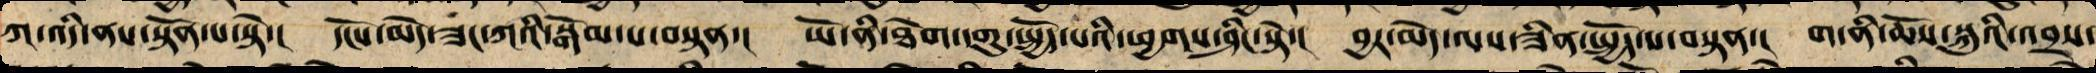ཀ་འདི་ནས་སྟོན་པ་སྟེ་། དངོས་མེད་ཟང་ཀའི་བསྒོམ་པ་བསྟན་། ཡོ་ནི་ཐེག་དགུ་སྤྱོད་པའི་ཕྱགས་ཤིང་སྟེ་། བྱར་མེད་ལས་ཟིན་སྤྱོད་པ་བསྟན་། ག་ནི་ཆོས་སྐུའི་འབྲས་
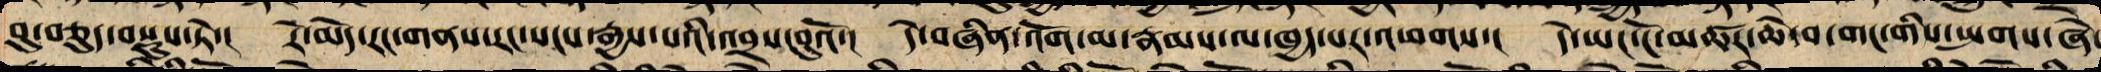བུ་བཅུད་བསྡུས་ཏེ་། རེ་མེད་རང་གནས་རང་སངས་རྒྱས་པའི་འབྲས་བུའོ་། དེ་བཞིན་འོག་མ་རྣམས་ལས་ཁྱད་པར་འཕགས་། དེ་ཡང་ངོ་མཚར་ཆེ་བ་གང་གིས་སྤགས་ཞེ་
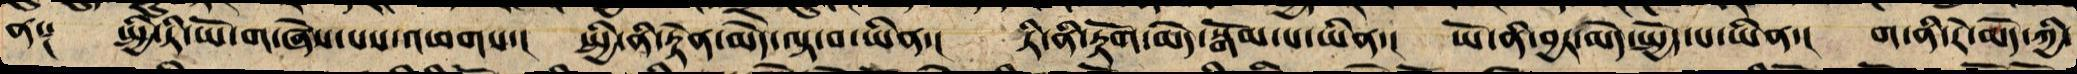ན༑ སྤྱི་ཏི་ཡོ་ག་ཞེས་པས་འཕགས་། སྤྱི་ནི་བསྟན་མེད་ལྟ་བ་ཡིན་། ཏི་ནི་རྟོག་མེད་སྒོམ་པ་ཡིན་། ཡོ་ནི་བྱར་མེད་སྤྱོད་པ་ཡིན་། ག་ནི་རེ་མེད་ཀྱི་
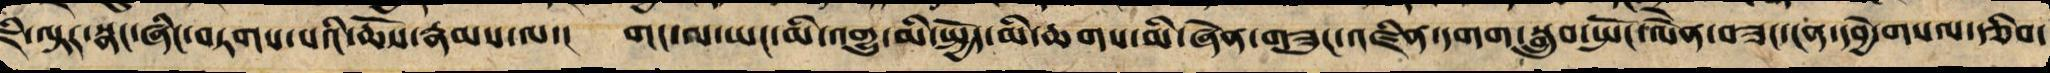ཇི་ལྟར་སྣང་ཞིང་བཏགས་པའི་ཆོས་རྣམས་ལ་། གང་ལ་ཡང་མི་འགྱུ་མི་སྤྱོད་མི་ཆགས་མི་ཞེན་གཟུང་འཛིན་དགག་སྒྲུབ་སྤོང་ལེན་བཟང་ངན་དབྱེ་བསལ་རྩིབ་
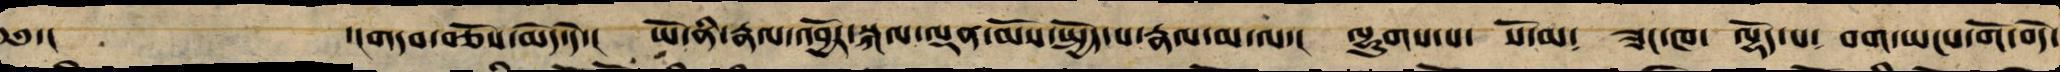༄༅་། ་།གདབ་བཅོས་མེད་དེ་། ཡོ་ནི་རྣལ་འབྱོར་སྐལ་ལྡན་མོས་སྤྱོད་པ་རྣལ་མ་ལ་། ལྷུགས་པ༴ སོ་མ༴ ཟང་ཁ༴ ལྷོད་པ༴ བག་ཡངས་གོ་བདེ་
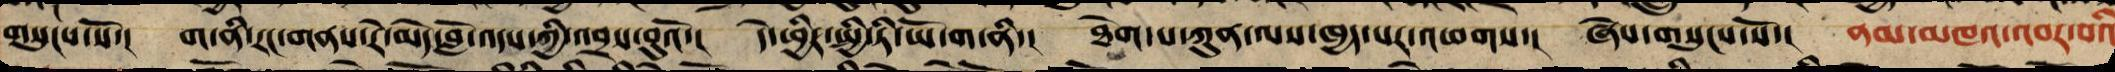གསུངས་སོ་། ག་ནི་རང་གནས་རེ་མེད་བློ་འདས་ཀྱི་འབྲས་བུའོ་། དེ་ཕྱིར་སྤྱི་ཏི་ཡོ་ག་ནི་། ཐེག་པ་ཀུན་ལས་ཁྱད་པར་འཕགས་། ཞེས་གསུངས་སོ་། ནམ་མཁའ་འབར་བའི
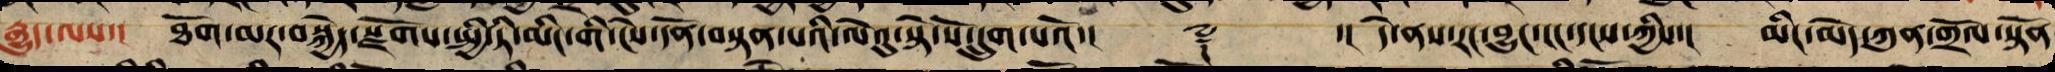རྒྱུད་ལས་། ཐོག་མར་བསྐྱེད་སྫོགས་སྤྱི་ཏི་མིང་གི་ངེས་དོན་བསྟན་པའི་ལེའུ་སྟེ་སོ་དྲུག་པའོ་།། ༈ ་།། དེ་ནས་རང་བྱུང་ངང་དངས་ཀྱིས་། མིང་མེད་ཀུན་གྲོལ་སྟོན་
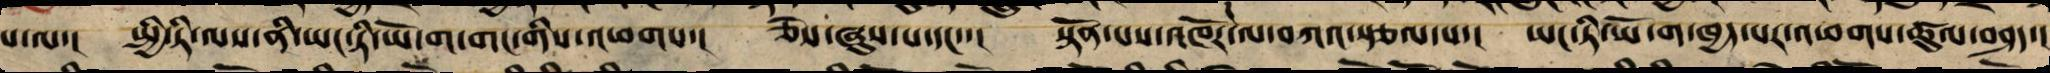པ་ལ་། སྤྱི་ཏི་ལས་ནི་ཡང་ཏི་ཡོ་ག་གང་གིས་འཕགས་། ཅེས་ཞུས་པ་དང་་། སྟོན་པས་འཁོར་ལ་བཀའ་སྩལ་པ་། ཡང་ཏི་ཡོ་ག་ཁྱད་པར་འཕགས་ཚུལ་བཤད་།
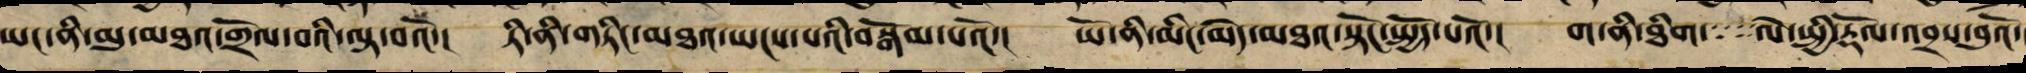ཡང་ནི་མུ་མཐའ་གྲོལ་བའི་ལྟ་བའོ་། ཏི་ནི་གཏིང་མཐའ་ཡངས་པའི་བསྒོམ་པའོ་། ཡོ་ནི་མིང་མེད་མཐའ་སྟོང་སྤྱོད་པའོ་། ག་ནི་ཐིག་ལེ་སྤྱི་རྟོལ་འབྲས་བུའོ་
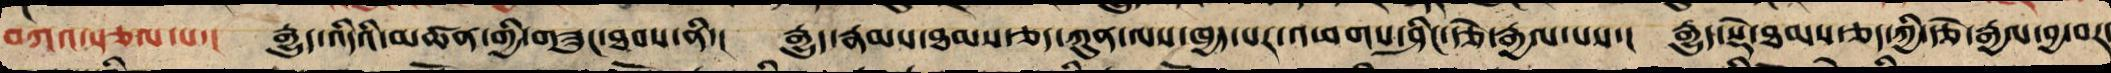བཀའ་སྩལ་པ་། རྒྱུད་འདིའི་མཚན་གྱི་གཟུང་ཐབས་ནི་། རྒྱུད་རྣམས་ཐམས་ཅད་ཀུན་ལས་ཁྱད་པར་འཕགས་ཤིང་རྩེ་རྒྱལ་པས་། རྒྱུད་སྡེ་ཐམས་ཅད་ཀྱི་རྩེ་རྒྱལ་བྱ་བར་
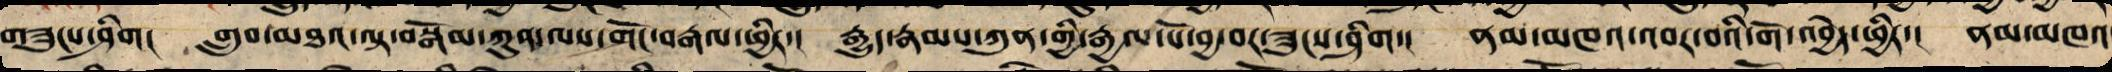གཟུངས་ཞིག། གྲུབ་མཐའ་བལྟ་བསྒོམ་ཀུན་ལས་གོང་བརྒལ་ཕྱིར་། རྒྱུད་རྣམས་ཀུན་གྱི་རྒྱལ་པོ་བྱ་བར་ཟུངས་ཞིག། ནམ་མཁའ་ལྟ་བུར་གོ་འབྱེད་ཕྱིར་། ནམ་མཁའ
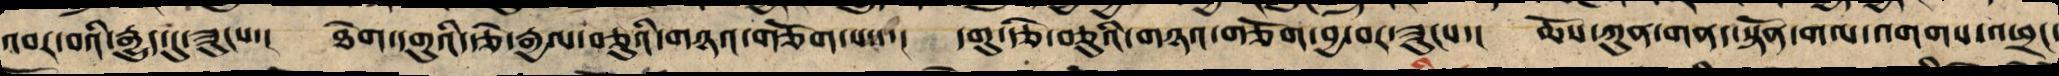འབར་བའི་རྒྱུད་དུ་ཟུངས་། ཐེག་དགུའི་རྩེ་རྒྱལ་བཅུ་ཡི་གཉའ་གཅོག་པས་། དགུ་རྩེ་བཅུ་ཡི་གཉའ་གཅོག་བྱ་བར་ཟུངས་། ཆོས་ཀུན་གནད་སྟོན་གལ་འགགས་འཕྲང་
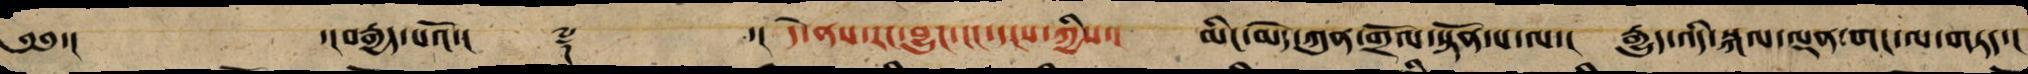༄༅་། ་།བརྒྱད་པའོ་།། ༈ ་།། དེ་ནས་རང་བྱུང་ངང་དངས་ཀྱིས་། མིང་མེད་ཀུན་གྲོལ་སྟོན་པ་ལ་། རྒྱུད་འདི་སྐལ་ལྡན་གང་ལ་གཏད་།
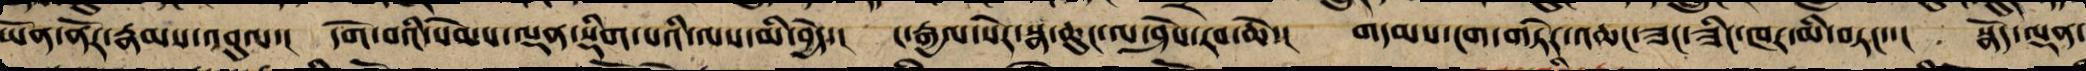ཡོན་ནོར་རྣམས་འབུལ་། དགེ་བའི་སེམས་ལྡན་སྡིག་པའི་ལས་མི་བྱེད་། ང་རྒྱལ་སེར་སྣ་ཆུང་ལ་ཤེས་རབ་ཆེ་། གདམས་ངག་གཏེར་འཆང་ཟང་ཟིང་ཁར་མི་གཏང་་། སྣོད་ལྡན་
